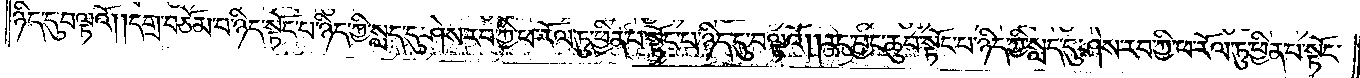ཉིད་དུ་བལྟའོ། །དགྲ་བཅོམ་པ་ཉིད་སྟོང་པ་ཉིད་ཀྱི་སླད་དུ་ཤེས་རབ་ཀྱི་ཕ་རོལ་ཏུ་ཕྱིན་པ་སྟོང་པ་ཉིད་དུ་བལྟའོ། །རང་བྱང་ཆུབ་སྟོང་པ་ཉིད་ཀྱི་སླད་དུ་ཤེས་རབ་ཀྱི་ཕ་རོལ་ཏུ་ཕྱིན་པ་སྟོང་
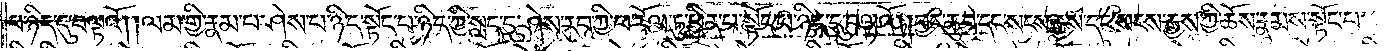པ་ཉིད་དུ་བལྟའོ། །ལམ་གྱི་རྣམ་པ་ཤེས་པ་ཉིད་སྟོང་པ་ཉིད་ཀྱི་སླད་དུ་ཤེས་རབ་ཀྱི་ཕ་རོལ་ཏུ་ཕྱིན་པ་སྟོང་པ་ཉིད་དུ་བལྟའོ། །བྱང་ཆུབ་དང་སངས་རྒྱས་དང་སངས་རྒྱས་ཀྱི་ཆོས་རྣམས་སྟོང་པ་
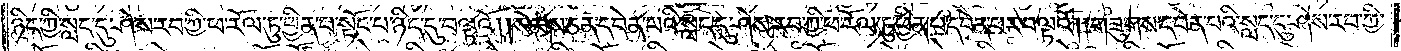ཉིད་ཀྱི་སླད་དུ་ཤེས་རབ་ཀྱི་ཕ་རོལ་ཏུ་ཕྱིན་པ་སྟོང་པ་ཉིད་དུ་བལྟའོ། །སེམས་ཅན་དབེན་པའི་སླད་དུ་ཤེས་རབ་ཀྱི་ཕ་རོལ་ཏུ་ཕྱིན་པ་དབེན་པར་བལྟའོ། །གཟུགས་དབེན་པའི་སླད་དུ་ཤེས་རབ་ཀྱི་
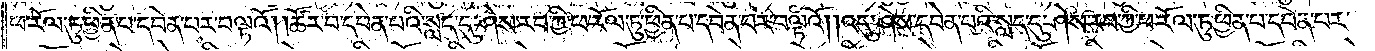ཕ་རོལ་ཏུ་ཕྱིན་པ་དབེན་པར་བལྟའོ། །ཚོར་བ་དབེན་པའི་སླད་དུ་ཤེས་རབ་ཀྱི་ཕ་རོལ་ཏུ་ཕྱིན་པ་དབེན་པར་བལྟའོ། །འདུ་ཤེས་དབེན་པའི་སླད་དུ་ཤེས་རབ་ཀྱི་ཕ་རོལ་ཏུ་ཕྱིན་པ་དབེན་པར་
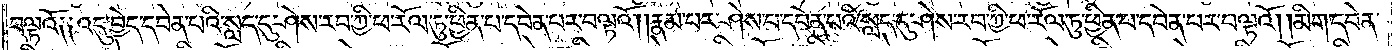བལྟའོ༑ ༑འདུ་བྱེད་དབེན་པའི་སླད་དུ་ཤེས་རབ་ཀྱི་ཕ་རོལ་ཏུ་ཕྱིན་པ་དབེན་པར་བལྟའོ། །རྣམ་པར་ཤེས་པ་དབེན་པའི་སླད་དུ་ཤེས་རབ་ཀྱི་ཕ་རོལ་ཏུ་ཕྱིན་པ་དབེན་པར་བལྟའོ། །མིག་དབེན་
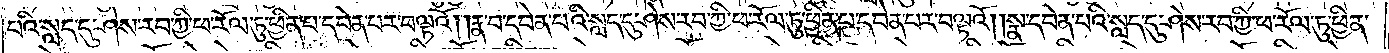པའི་སླད་དུ་ཤེས་རབ་ཀྱི་ཕ་རོལ་ཏུ་ཕྱིན་པ་དབེན་པར་བལྟའོ། །རྣ་བ་དབེན་པའི་སླད་དུ་ཤེས་རབ་ཀྱི་ཕ་རོལ་ཏུ་ཕྱིན་པ་དབེན་པར་བལྟའོ། །སྣ་དབེན་པའི་སླད་དུ་ཤེས་རབ་ཀྱི་ཕ་རོལ་ཏུ་ཕྱིན་
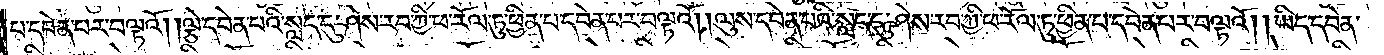པ་དབེན་པར་བལྟའོ། །ལྕེ་དབེན་པའི་སླད་དུ་ཤེས་རབ་ཀྱི་ཕ་རོལ་ཏུ་ཕྱིན་པ་དབེན་པར་བལྟའོ། །ལུས་དབེན་པའི་སླད་དུ་ཤེས་རབ་ཀྱི་ཕ་རོལ་ཏུ་ཕྱིན་པ་དབེན་པར་བལྟའོ། །ཡིད་དབེན་
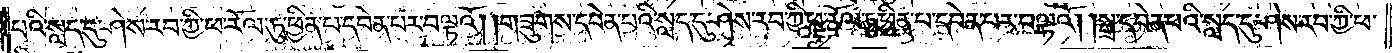པའི་སླད་དུ་ཤེས་རབ་ཀྱི་ཕ་རོལ་ཏུ་ཕྱིན་པ་དབེན་པར་བལྟའོ། །གཟུགས་དབེན་པའི་སླད་དུ་ཤེས་རབ་ཀྱི་ཕ་རོལ་ཏུ་ཕྱིན་པ་དབེན་པར་བལྟའོ། །སྒྲ་དབེན་པའི་སླད་དུ་ཤེས་རབ་ཀྱི་ཕ་
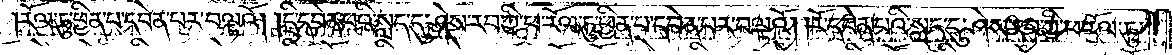རོལ་ཏུ་ཕྱིན་པ་དབེན་པར་བལྟའོ། །དྲི་དབེན་པའི་སླད་དུ་ཤེས་རབ་ཀྱི་ཕ་རོལ་ཏུ་ཕྱིན་པ་དབེན་པར་བལྟའོ། །རོ་དབེན་པའི་སླད་དུ་ཤེས་རབ་ཀྱི་ཕ་རོལ་ཏུ་
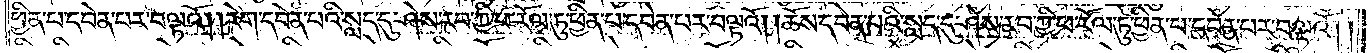ཕྱིན་པ་དབེན་པར་བལྟའོ། །རེག་དབེན་པའི་སླད་དུ་ཤེས་རབ་ཀྱི་ཕ་རོལ་ཏུ་ཕྱིན་པ་དབེན་པར་བལྟའོ། །ཆོས་དབེན་པའི་སླད་དུ་ཤེས་རབ་ཀྱི་ཕ་རོལ་ཏུ་ཕྱིན་པ་དབེན་པར་བལྟའོ། །
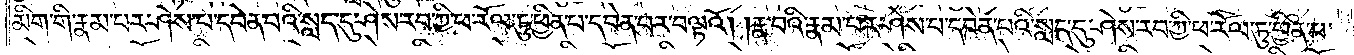མིག་གི་རྣམ་པར་ཤེས་པ་དབེན་པའི་སླད་དུ་ཤེས་རབ་ཀྱི་ཕ་རོལ་ཏུ་ཕྱིན་པ་དབེན་པར་བལྟའོ། །རྣ་བའི་རྣམ་པར་ཤེས་པ་དབེན་པའི་སླད་དུ་ཤེས་རབ་ཀྱི་ཕ་རོལ་ཏུ་ཕྱིན་པ་
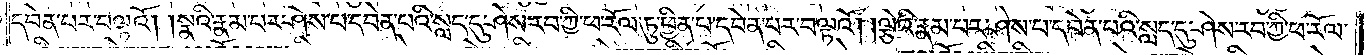དབེན་པར་བལྟའོ། །སྣའི་རྣམ་པར་ཤེས་པ་དབེན་པའི་སླད་དུ་ཤེས་རབ་ཀྱི་ཕ་རོལ་ཏུ་ཕྱིན་པ་དབེན་པར་བལྟའོ། །ལྕེའི་རྣམ་པར་ཤེས་པ་དབེན་པའི་སླད་དུ་ཤེས་རབ་ཀྱི་ཕ་རོལ་
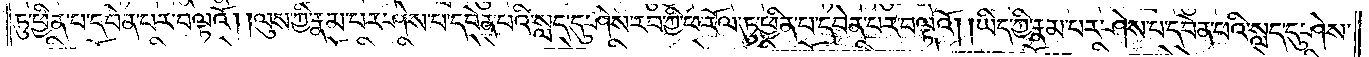ཏུ་ཕྱིན་པ་དབེན་པར་བལྟའོ། །ལུས་ཀྱི་རྣམ་པར་ཤེས་པ་དབེན་པའི་སླད་དུ་ཤེས་རབ་ཀྱི་ཕ་རོལ་ཏུ་ཕྱིན་པ་དབེན་པར་བལྟའོ། །ཡིད་ཀྱི་རྣམ་པར་ཤེས་པ་དབེན་པའི་སླད་དུ་ཤེས་
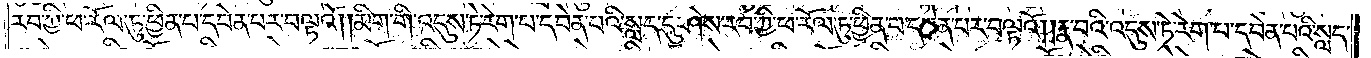རབ་ཀྱི་ཕ་རོལ་ཏུ་ཕྱིན་པ་དབེན་པར་བལྟའོ། །མིག་གི་འདུས་ཏེ་རེག་པ་དབེན་པའི་སླད་དུ་ཤེས་རབ་ཀྱི་ཕ་རོལ་ཏུ་ཕྱིན་པ་དབེན་པར་བལྟའོ། །རྣ་བའི་འདུས་ཏེ་རེག་པ་དབེན་པའི་སླད་
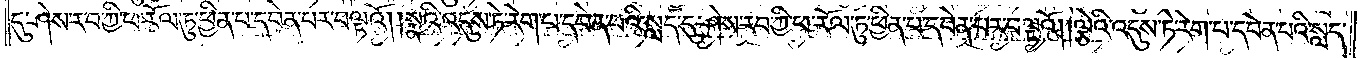དུ་ཤེས་རབ་ཀྱི་ཕ་རོལ་ཏུ་ཕྱིན་པ་དབེན་པར་བལྟའོ། །སྣའི་འདུས་ཏེ་རེག་པ་དབེན་པའི་སླད་དུ་ཤེས་རབ་ཀྱི་ཕ་རོལ་ཏུ་ཕྱིན་པ་དབེན་པར་བལྟའོ། །ལྕེའི་འདུས་ཏེ་རེག་པ་དབེན་པའི་སླད་
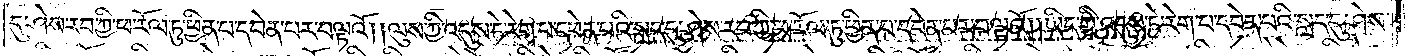དུ་ཤེས་རབ་ཀྱི་ཕ་རོལ་ཏུ་ཕྱིན་པ་དབེན་པར་བལྟའོ། །ལུས་ཀྱི་འདུས་ཏེ་རེག་པ་དབེན་པའི་སླད་དུ་ཤེས་རབ་ཀྱི་ཕ་རོལ་ཏུ་ཕྱིན་པ་དབེན་པར་བལྟའོ། །ཡིད་ཀྱི་འདུས་ཏེ་རེག་པ་དབེན་པའི་སླད་དུ་ཤེས་
